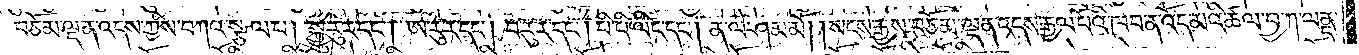དང༌། བཅོམ་ལྡན་འདས་ཀྱིས་བཀའ་སྩལ་པ། སྐྱུ་རུ་ར་དང༌། ཨ་རུ་ར་དང༌། བ་རུ་ར་དང༌། པི་པི་ལིང་དང༌། ན་ལེ་ཤམ་མོ། །སངས་རྒྱས་བཅོམ་ལྡན་འདས་རྒྱལ་པོའི་ཁབ་ན་འོད་མའི་ཚལ་བྱ་ཀ་ལནྡ་
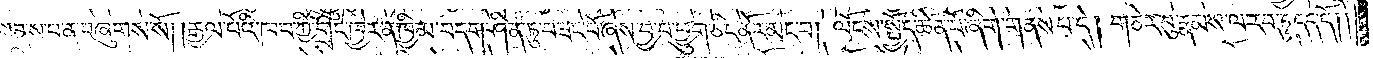གནས་པ་ན་བཞུགས་སོ། །རྒྱལ་པོའི་ཁབ་ཀྱི་གྲོང་ཁྱེར་ན་ཁྱིམ་བདག་ཤིན་ཏུ་བཟང་པོ་ཞེས་བྱ་བ་ཕྱུག་ཅིང་ནོར་མང་བ། ལོངས་སྤྱོད་ཆེན་པོ་ཞིག་གནས་པ་དེ། གཅེར་བུ་རྣམས་ལ་རབ་ཏུ་དད་དོ། །
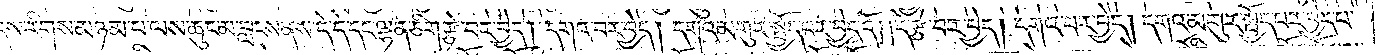དེས་རིགས་མཉམ་པ་ལས་ཆུང་མ་བླངས་ནས་དེ་དེ་དང་ལྷན་ཅིག་རྩེ་བར་བྱེད། དགའ་བར་བྱེད། དགའ་མགུར་སྤྱོད་པར་བྱེད་དོ། །དེ་རྩེ་བར་བྱེད། དགའ་བར་བྱེད། དགའ་མགུར་སྤྱོད་པར་བྱེད་པ་
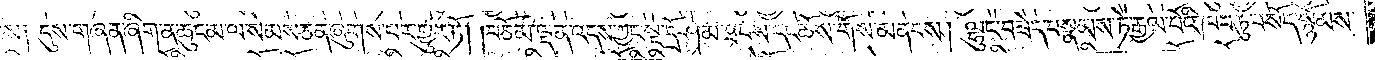ས། དུས་གཞན་ཞིག་ན་ཆུང་མ་ལ་སེམས་ཅན་ཞུགས་པར་གྱུར་ཏོ། །བཅོམ་ལྡན་འདས་ཀྱང་སྔ་དྲོ་ཤམ་ཐབས་དང་ཆོས་གོས་མནབས། ལྷུང་བཟེད་བསྣམས་ཏེ་རྒྱལ་པོའི་ཁབ་ཏུ་བསོད་སྙོམས་
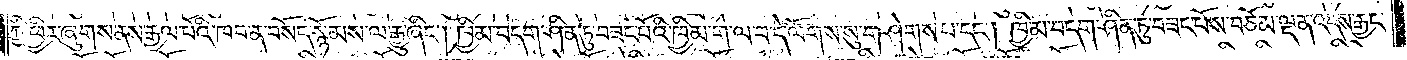ཀྱི་ཕྱིར་ཞུགས་ནས་རྒྱལ་པོའི་ཁབ་ན་བསོད་སྙོམས་ལ་རྒྱུ་ཞིང༌། ཁྱིམ་བདག་ཤིན་ཏུ་བཟང་པོའི་ཁྱིམ་ག་ལ་བ་དེ་ལོགས་སུ་གཤེགས་པ་དང༌། ཁྱིམ་བདག་ཤིན་ཏུ་བཟང་པོས་བཅོམ་ལྡན་འདས་རྒྱང་
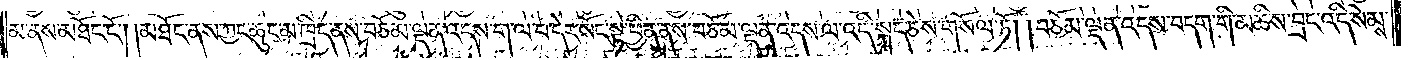མ་ནས་མཐོང་ངོ༌། །མཐོང་ནས་ཀྱང་ཆུང་མ་ཁྲིད་ནས་བཅོམ་ལྡན་འདས་ག་ལ་བ་དེར་སོང་སྟེ་ཕྱིན་ནས་བཅོམ་ལྡན་འདས་ལ་འདི་སྐད་ཅེས་གསོལ་ཏོ། །བཅོམ་ལྡན་འདས་བདག་གི་མཆིས་བྲང་འདི་སེམས་
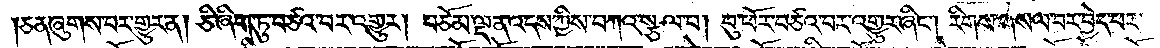ཅན་ཞུགས་པར་གྱུར་ན། ཅི་ཞིག་ཏུ་བཙའ་བར་འགྱུར། བཅོམ་ལྡན་འདས་ཀྱིས་བཀའ་སྩལ་པ། བུ་ཕོར་བཙའ་བར་འགྱུར་ཞིང༌། རིགས་གསལ་བར་བྱེད་པར་
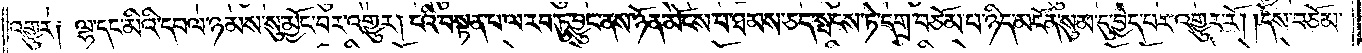འགྱུར༑ ལྷ་དང་མིའི་དཔལ་ཉམས་སུ་མྱོང་བར་འགྱུར། ངའི་བསྟན་པ་ལ་རབ་ཏུ་བྱུང་ནས་ཉོན་མོངས་པ་ཐམས་ཅད་སྤངས་ཏེ་དགྲ་བཅོམ་པ་ཉིད་མངོན་སུམ་དུ་བྱེད་པར་འགྱུར་རོ། །དེས་བཅོམ་
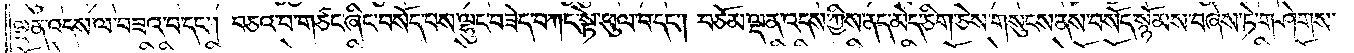ལྡན་འདས་ལ་བཟའ་བ་དང༌། བཅའ་བ་གཙང་ཞིང་བསོད་པས་ལྷུང་བཟེད་བཀང་སྟེ་ཕུལ་བ་དང༌། བཅོམ་ལྡན་འདས་ཀྱིས་ནད་མེད་ཅིག་ཅེས་གསུངས་ནས་བསོད་སྙོམས་བཞེས་ཏེ་གཤེགས་
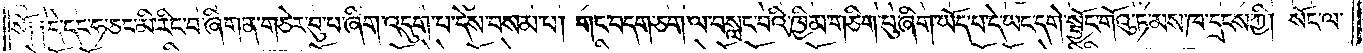སོ༑ ༑དེ་དང་ཧ་ཅང་མི་རིང་བ་ཞིག་ན་གཅེར་བུ་པ་ཞིག་འདུག་པ་དེས་བསམ་པ། གང་བདག་ཅག་ལ་བསླང་བའི་ཁྱིམ་གཅིག་པུ་ཞིག་ཡོད་པ་དེ་ཡང་དགེ་སྦྱོང་གོའུ་ཏ་མས་ཁ་དྲངས་ཀྱི། སོང་ལ་
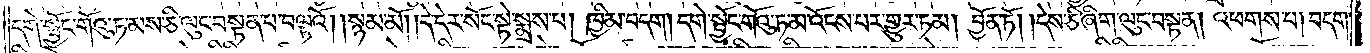དགེ་སྦྱོང་གོའུ་ཏ་མས་ཅི་ལུང་བསྟན་པ་བལྟའོ། །སྙམ་མོ། །དེ་དེར་སོང་སྟེ་སྨྲས་པ། ཁྱིམ་བདག །དགེ་སྦྱོང་གོའུ་ཏ་མ་འོངས་པར་གྱུར་ཏམ། བྱོན་ཏོ། །དེས་ཅི་ཞིག་ལུང་བསྟན། འཕགས་པ། བདག་
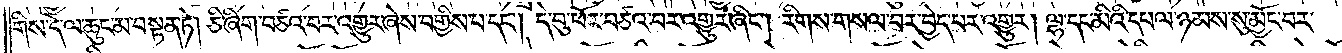གིས་དེ་ལ་ཆུང་མ་བསྟན་ཏེ། ཅི་ཞིག་བཙའ་བར་འགྱུར་ཞེས་བགྱིས་པ་དང༌། དེ་བུ་ཕོར་བཙའ་བར་འགྱུར་ཞིང༌། རིགས་གསལ་བར་བྱེད་པར་འགྱུར། ལྷ་དང་མིའི་དཔལ་ཉམས་སུ་མྱོང་བར་
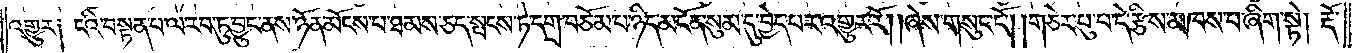འགྱུར། ངའི་བསྟན་པ་ལ་རབ་ཏུ་བྱུང་ནས་ཉོན་མོངས་པ་ཐམས་ཅད་སྤངས་ཏེ་དགྲ་བཅོམ་པ་ཉིད་མངོན་སུམ་དུ་བྱེད་པར་འགྱུར་རོ། །ཞེས་གསུང་ངོ༌། །གཅེར་བུ་པ་དེ་རྩིས་མཁས་པ་ཞིག་སྟེ། རྡོ་
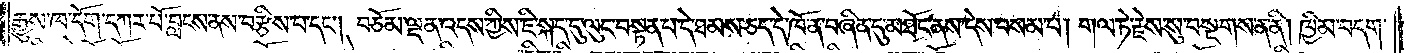རྒྱུས་ཁ་དོག་དཀར་པོ་བླངས་ནས་བརྩིས་པ་དང༌། བཅོམ་ལྡན་འདས་ཀྱིས་ཇི་སྐད་དུ་ལུང་བསྟན་པ་དེ་ཐམས་ཅད་དེ་ཁོ་ན་བཞིན་དུ་མཐོང་ནས་དེས་བསམ་པ། གལ་ཏེ་རྗེས་སུ་བསྔགས་ན་ནི། ཁྱིམ་བདག་
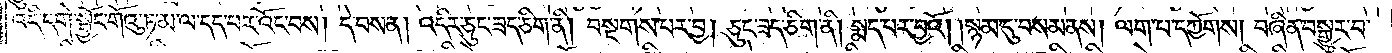འདི་དགེ་སྦྱོང་གོའུ་ཏ་མ་ལ་དད་པར་འོང་བས། དེ་བས་ན། འདིར་ཅུང་ཟད་ཅིག་ནི། བསྔགས་པར་བྱ། ཅུང་ཟད་ཅིག་ནི། སྨད་པར་བྱའོ། །སྙམ་དུ་བསམ་ནས། ལག་པ་དཀྱོགས། བཞིན་བསྒྱུར་བ་
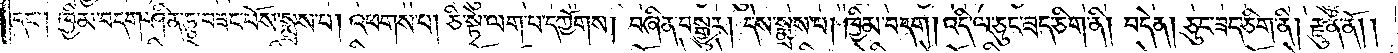དང༌། ཁྱིམ་བདག་ཤིན་ཏུ་བཟང་པོས་སྨྲས་པ། འཕགས་པ། ཅི་སྟེ་ལག་པ་དཀྱོགས། བཞིན་བསྒྱུར། དེས་སྨྲས་པ། ཁྱིམ་བདག །འདི་ལ་ཅུང་ཟད་ཅིག་ནི། བདེན། ཅུང་ཟད་ཅིག་ནི། རྫུན་ནོ། །
